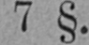7 § .
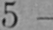5
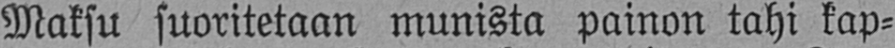Maksu suoritetaan munista painon tahi kap-
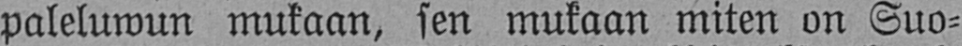paleluwun mukaan, sen mukaan miten on Suo-
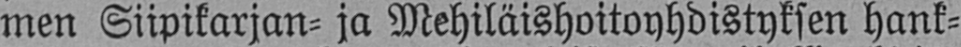men Siipikarjan- ja Mehiläishoitoyhdistyksen hank-
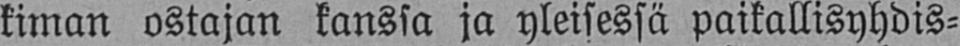kiman ostajan kansia ja yleisessä paikallisyhdis-
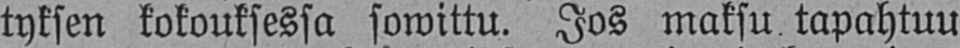tyksen kokouksessa sowittu. Jos maksu tapahtuu
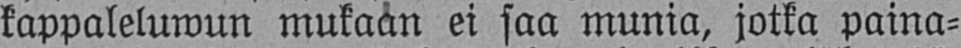kappaleluwun mukaan ei saa munia, jotka paina-
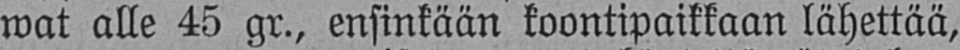wat alle 45 gr., ensinkään koontipaikkaan lähettää,
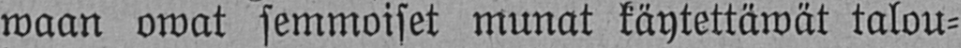waan owat semmoiset munat käytettäwät talou-
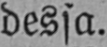dessa.
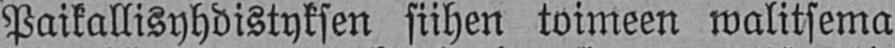Paikallisyhdistyksen siihen toimeen walitsema
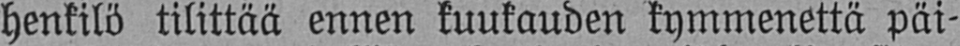henkilö tilittää ennen kuukauden kymmenettä päi-
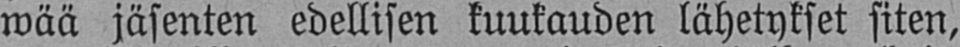wää jäsenten edellisen kuukauden lähetykset siten,
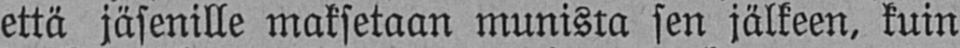että jäsenille maksetaan munista sen jälkeen, kuin
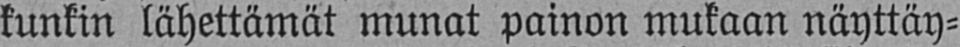kunkin lähettämät munat painon mukaan näyttäy-
